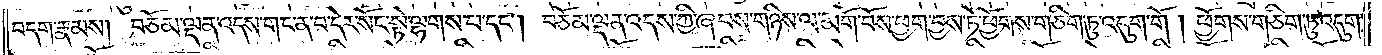བདག་རྣམས། བཅོམ་ལྡན་འདས་གང་ན་བ་དེར་སོང་སྟེ་ལྷགས་པ་དང༌། བཅོམ་ལྡན་འདས་ཀྱི་ཞབས་གཉིས་ལ་མགོ་བོས་ཕྱག་བྱས་ཏེ་ཕྱོགས་གཅིག་ཏུ་འདུག་གོ །ཕྱོགས་གཅིག་ཏུ་འདུག་
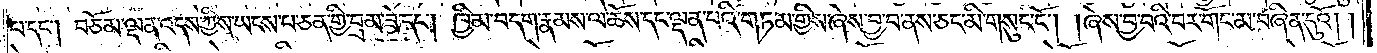པ་དང༌། བཅོམ་ལྡན་འདས་ཀྱིས་ཡངས་པ་ཅན་གྱི་བྲམ་ཟེ་དང༌། ཁྱིམ་བདག་རྣམས་ལ་ཆོས་དང་ལྡན་པའི་གཏམ་གྱིས་ཞེས་བྱ་བ་ནས་ཅང་མི་གསུང་ངོ༌། །ཞེས་བྱ་བའི་བར་གོང་མ་བཞིན་དུའོ། །
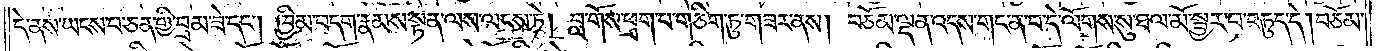དེ་ནས་ཡངས་པ་ཅན་གྱི་བྲམ་ཟེ་དང༌། ཁྱིམ་བདག་རྣམས་སྟན་ལས་ལངས་ཏེ། བླ་གོས་ཕྲག་པ་གཅིག་ཏུ་གཟར་ནས། བཅོམ་ལྡན་འདས་གང་ན་བ་དེ་ལོགས་སུ་ཐལ་མོ་སྦྱར་བ་བཏུད་དེ། བཅོམ་
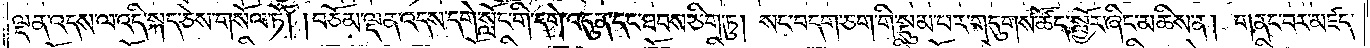ལྡན་འདས་ལ་འདི་སྐད་ཅེས་གསོལ་ཏོ། །བཅོམ་ལྡན་འདས་དགེ་སློང་གི་དགེ་འདུན་དང་ཐབས་ཅིག་ཏུ། སང་བདག་ཅག་གི་སྡུམ་པར་གདུགས་ཚོད་སྦྱོར་ཞིང་མཆིས་ན། གནང་བར་མཛད་
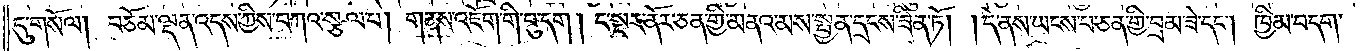དུ་གསོལ། བཅོམ་ལྡན་འདས་ཀྱིས་བཀའ་སྩལ་པ། གནས་འཇོག་གི་བུ་དག །ང་སྔར་ནོར་ཅན་གྱི་མནའ་མས་སྤྱན་དྲངས་ཟིན་ཏོ། །དེ་ནས་ཡངས་པ་ཅན་གྱི་བྲམ་ཟེ་དང༌། ཁྱིམ་བདག་
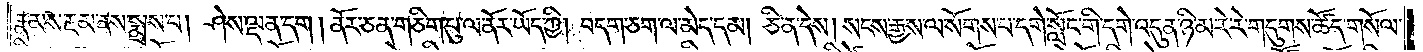རྣམས་རྔམ་ནས་སྨྲས་པ། ཤེས་ལྡན་དག །ནོར་ཅན་གཅིག་པུ་ལ་ནོར་ཡོད་ཀྱི། བདག་ཅག་ལ་མེད་དམ། ཅི་ན་དེས། སངས་རྒྱས་ལ་སོགས་པ་དགེ་སློང་གི་དགེ་འདུན་ཉི་མ་རེ་རེ་གདུགས་ཚོད་གསོལ་
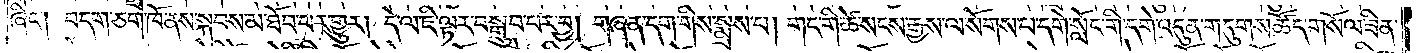ཞིང༌། བདག་ཅག་ཁོ་ནས་སྐབས་མ་ཐོབ་པར་གྱུར། དེ་ལ་ཇི་ལྟར་བསྒྲུབ་པར་བྱ། གཞན་དག་གིས་སྨྲས་པ། གང་གི་ཚེ་སངས་རྒྱས་ལ་སོགས་པ་དགེ་སློང་གི་དགེ་འདུན་གདུགས་ཚོད་གསོལ་ཟིན་
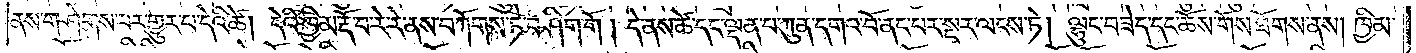ནས་གཤེགས་པར་གྱུར་པ་དེའི་ཚེ། དེའི་ཁྱིམ་རྡོ་བ་རེ་རེ་ནས་བཀོགས་ཏེ་བཤིག་གོ །དེ་ནས་ཚེ་དང་ལྡན་པ་ཀུན་དགའ་བོ་ནང་པར་སྔར་ལངས་ཏེ། ལྷུང་བཟེད་དང་ཆོས་གོས་ཐོགས་ནས། ཁྱིམ་
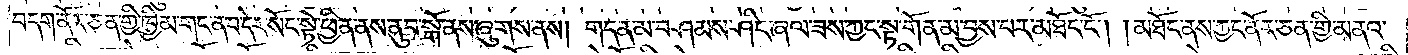བདག་ནོར་ཅན་གྱི་ཁྱིམ་གང་ན་བ་དེར་སོང་སྟེ་ཕྱིན་ནས་ནུབ་སྒོ་ནས་ཞུགས་ནས། གདན་མ་བཤམས་ཤིང་ཞལ་ཟས་ཀྱང་སྟ་གོན་མ་བྱས་པར་མཐོང་ངོ༌། །མཐོང་ནས་ཀྱང་ནོར་ཅན་གྱི་མནའ་
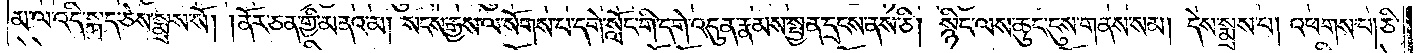མ་ལ་འདི་སྐད་ཅེས་སྨྲས་སོ། །ནོར་ཅན་གྱི་མནའ་མ། སངས་རྒྱས་ལ་སོགས་པ་དགེ་སློང་གི་དགེ་འདུན་རྣམས་སྤྱན་དྲངས་ནས་ཅི། སྙིང་ལས་ཆུང་དུས་གནས་སམ། དེས་སྨྲས་པ། འཕགས་པ། ཅི་
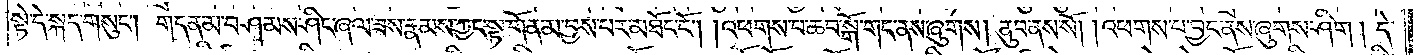སྟེ་དེ་སྐད་གསུང༌། གདན་མ་བཤམས་ཤིང་ཞལ་ཟས་རྣམས་ཀྱང་སྟ་གོན་མ་བྱས་པར་མཐོང་ངོ༌། །འཕགས་པ་ཆབ་སྒོ་གང་ནས་ཞུགས། ནུབ་ནས་སོ། །འཕགས་པ་བྱང་ནས་ཞུགས་ཤིག །དེ་
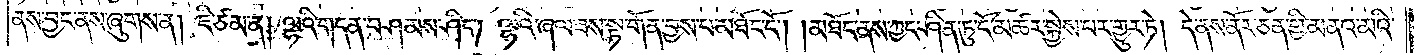ནས་བྱང་ནས་ཞུགས་ན། ཇི་ཙམ་ན། ལྷའི་གདན་བཤམས་ཤིང༌། ལྷའི་ཞལ་ཟས་སྟ་གོན་བྱས་པ་མཐོང་ངོ༌། །མཐོང་ནས་ཀྱང་ཤིན་ཏུ་ངོ་མཚར་སྐྱེས་པར་གྱུར་ཏེ། དེ་ནས་ནོར་ཅན་གྱི་མནའ་མའི་
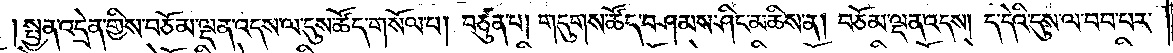སྤྱན་འདྲེན་གྱིས་བཅོམ་ལྡན་འདས་ལ་དུས་ཚོད་གསོལ་པ། བཙུན་པ། གདུགས་ཚོད་བཤམས་ཤིང་མཆིས་ན། བཅོམ་ལྡན་འདས། ད་དེའི་དུས་ལ་བབ་པར་
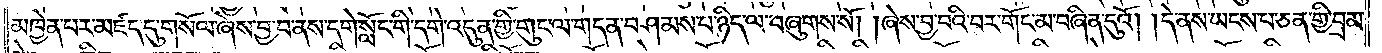མཁྱེན་པར་མཛད་དུ་གསོལ་ཞེས་བྱ་བ་ནས་དགེ་སློང་གི་དགེ་འདུན་གྱི་གུང་ལ་གདན་བཤམས་པ་ཉིད་ལ་བཞུགས་སོ། །ཞེས་བྱ་བའི་བར་གོང་མ་བཞིན་དུའོ། །དེ་ནས་ཡངས་པ་ཅན་གྱི་བྲམ་
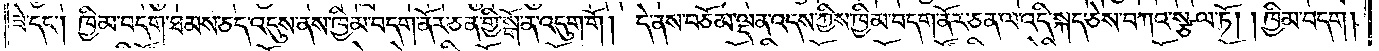ཟེ་དང༌། ཁྱིམ་བདག་ཐམས་ཅད་འདུས་ནས་ཁྱིམ་བདག་ནོར་ཅན་གྱི་སྒོ་ན་འདུག་གོ །དེ་ནས་བཅོམ་ལྡན་འདས་ཀྱིས་ཁྱིམ་བདག་ནོར་ཅན་ལ་འདི་སྐད་ཅེས་བཀའ་སྩལ་ཏོ། །ཁྱིམ་བདག །
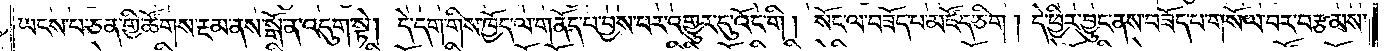ཡངས་པ་ཅན་གྱི་ཚོགས་རྔམ་ནས་སྒོ་ན་འདུག་སྟེ། དེ་དག་གིས་ཁྱོད་ལ་གནོད་པ་བྱས་པར་འགྱུར་དུ་འོང་གི །སོང་ལ་བཟོད་པ་མཛོད་ཅིག །དེ་ཕྱིར་བྱུང་ནས་བཟོད་པ་གསོལ་བར་བརྩམས་
